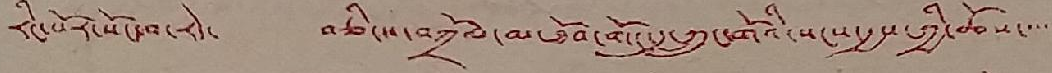རིང་པོར་སོང་བ་རེད་ བཅིངས་བཀྲོལ་མ་ཐོབ་གོང་དུ་ཀྲུང་གོའི་སངས་རྒྱས་ཀྱི་ཆོས་་་་་
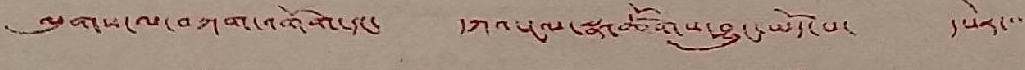ལུགས་ལ་བཀའ་འགོག་དང་ དཀའ་ངལ་སྣ་ཚོགས་བྱུང་ཡོད་པ་ དཔེར་་་་
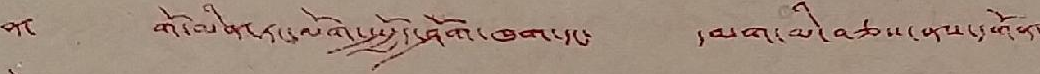ན་ གོ་མིན་ཏང་ལོག་སྤྱོད་ཤོག་ཁག་དང་ དམག་མི་བཅས་ནས་དགོན་
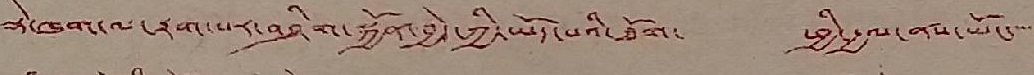སྡེ་ཁག་ལ་རྟག་པར་བཤིག་སྐྱོན་བྱེད་ཀྱི་ཡོད་པའི་ཐོག་ ཕྱི་རྒྱལ་ནས་ཡོང་་་་་
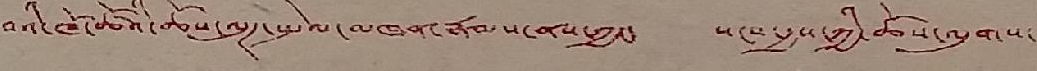བའི་ཁོ་ཚོའི་ཆོས་ལུཊ་སྤེལ་མཁན་རྣམས་ནས་ཀྱང་ སངས་རྒྱས་ཀྱི་ཆོས་ལུགས་
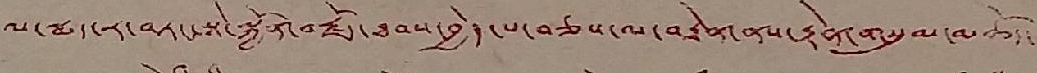ལ་རྨད་ར་བཏང་སྟེ་སྐྱོན་བརྗོད་ཐབས་བྱེད་པ་བཅས་ལ་བརྟེན་ནས་རྟེན་གསུམ་མཆོད་
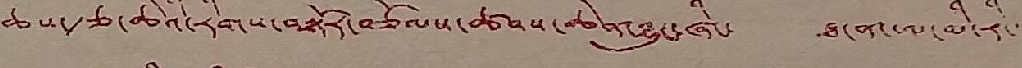ཆས་རྩ་ཆེའི་རིགས་བསྟོར་བཅོམས་ཚབས་ཆེན་བྱུང་ཞིང་ ཐ་ན་ཨ་མི་རི་་་་
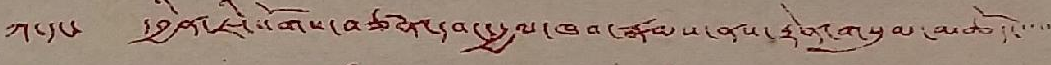ཀ་དང་ དབྱིན་ཇི་སོགས་བཙན་དབང་རྒྱལ་ཁབ་རྣམས་ནས་རྟེན་གསུམ་མཆོད་་་་་
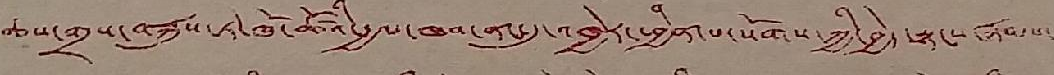ཆས་གྲས་བརྐུས་ཏེ་ཁོ་ཚོའི་རྒྱལ་ཁབ་ནང་དུ་འཁྱེར་ཕྱིན་པ་སོགས་ཀྱི་བྱེད་སྟངས་རྣམས་
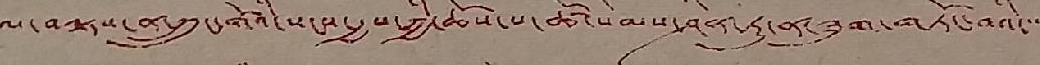ལ་བལྟས་ན་ཀྲུང་གོའི་སངས་རྒྱས་ཆོས་པ་ཚོ་སེམས་ཤིན་ཏུ་ན་ཟུག་གཏོང་བའི་་་་
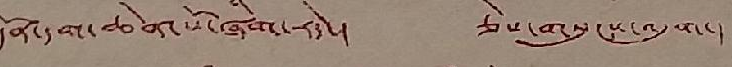དོན་དག་ཆེན་པོ་ཞིག་རེད་། ཅེས་གསུངས་འདུག་།
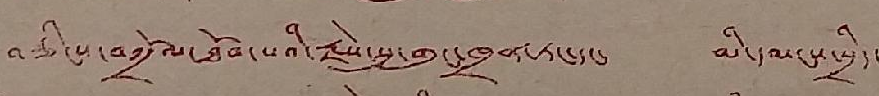བཅིངས་བཀྲོལ་ཐོབ་པའི་རྗེས་སུ་གུང་ཁྲན་ཏང་དང་ མི་དམངས་སྲིད་
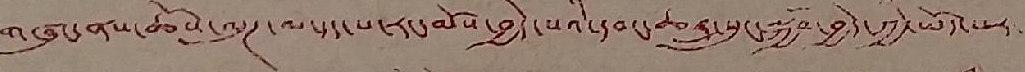གཞུང་ནས་ཆོས་ལུཊ་ལ་དད་པ་རང་མོས་བྱེད་པའི་དབང་ཆ་སྲུང་སྐྱོབ་བྱེད་ཀྱི་ཡོད་པར་
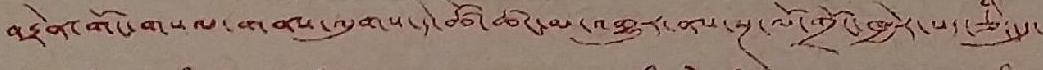བརྟེན་གོང་གསལ་གནས་ལུགས་དེ་ཚོ་ཚང་མ་འགྱུར་ནས་སྔ་ལོ་གྲོང་ཁྱེར་པད་ཅིང་དུ་
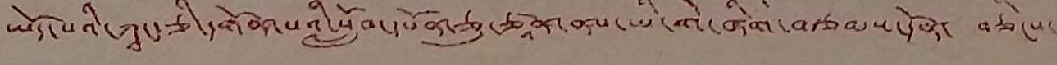ཡོད་པའི་ཀྭང་ཅི་དགོན་པའི་སློབ་དཔོན་ཅུ་རྩཱན་ནས་ཡི་གེ་ཞིག་བརྩམས་དོན་ བཅིངས་
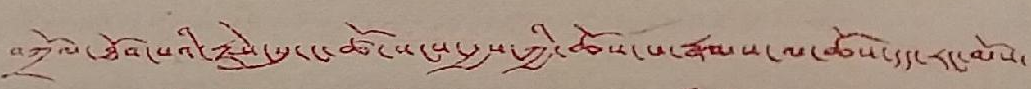བཀྲོལ་ཐོབ་པའི་རྗེས་སུ་ང་ཚོ་སངས་རྒྱས་ཀྱི་ཆོས་པ་རྣམས་ལ་ཆོས་དད་རང་མོས་
